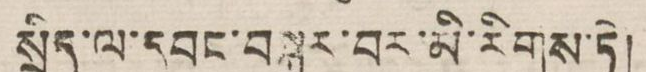སྲིད་ལ་དབང་བསྐུར་བར་མི་རིགས་ཏེ།
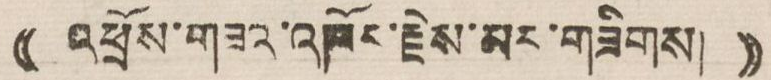(( འཕྲོས་གཟའ་འཁོར་རྗེས་མར་གཟིགས། ))
